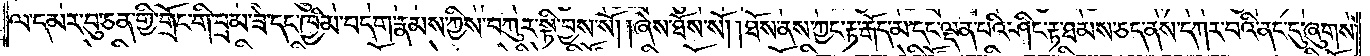ལ་དམར་བུ་ཅན་གྱི་གྲོང་གི་བྲམ་ཟེ་དང་ཁྱིམ་བདག་རྣམས་ཀྱིས་བཀུར་སྟི་བྱས་སོ། །ཞེས་ཐོས་སོ། །ཐོས་ནས་ཀྱང་རྟ་རྒོད་མ་དང་ལྡན་པའི་ཤིང་རྟ་ཐམས་ཅད་ནས་དཀར་བའི་ནང་དུ་ཞུགས་
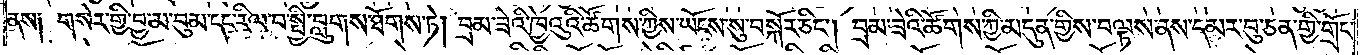ནས༑ གསེར་གྱི་བྱ་མ་བུམ་དང་རིལ་བ་སྤྱི་བླུགས་ཐོགས་ཏེ། བྲམ་ཟེའི་ཁྱེའུའི་ཚོགས་ཀྱིས་ཡོངས་སུ་བསྐོར་ཅིང༌། བྲམ་ཟེའི་ཚོགས་ཀྱི་མདུན་གྱིས་བལྟས་ནས་དམར་བུ་ཅན་གྱི་གྲོང་
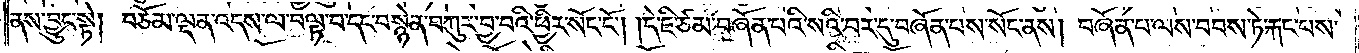ནས་བྱུང་སྟེ། བཅོམ་ལྡན་འདས་ལ་བལྟ་བ་དང་བསྙེན་བཀུར་བྱ་བའི་ཕྱིར་སོང་ངོ༌། །དེ་ཇི་ཙམ་བཞོན་པའི་སའི་བར་དུ་བཞོན་པས་སོང་ནས། བཞོན་པ་ལས་བབས་ཏེ་རྐང་པས་
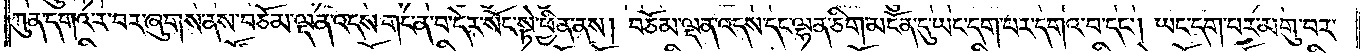ཀུན་དགའ་ར་བར་ཞུགས་ནས་བཅོམ་ལྡན་འདས་གང་ན་བ་དེར་སོང་སྟེ་ཕྱིན་ནས། བཅོམ་ལྡན་འདས་དང་ལྷན་ཅིག་མངོན་དུ་ཡང་དག་པར་དགའ་བ་དང༌། ཡང་དག་པར་མགུ་བར་
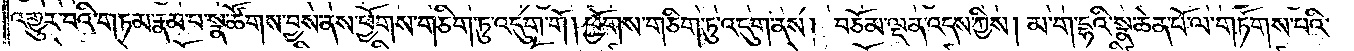འགྱུར་བའི་གཏམ་རྣམ་པ་སྣ་ཚོགས་བྱས་ནས་ཕྱོགས་གཅིག་ཏུ་འདུག་གོ །ཕྱོགས་གཅིག་ཏུ་འདུག་ནས། བཅོམ་ལྡན་འདས་ཀྱིས། མ་ག་དྷའི་སྣ་ཆེན་པོ་ལ་གཏོགས་པའི་
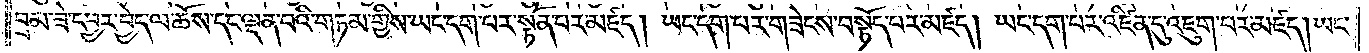བྲམ་ཟེ་དབྱར་བྱེད་ལ་ཆོས་དང་ལྡན་པའི་གཏམ་གྱིས་ཡང་དག་པར་སྟོན་པར་མཛད། ཡང་དག་པར་གཟེངས་བསྟོད་པར་མཛད། ཡང་དག་པར་འཛིན་དུ་འཇུག་པར་མཛད། ཡང་
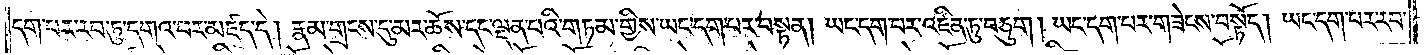དག་པར་རབ་ཏུ་དགའ་བར་མཛད་དེ། རྣམ་གྲངས་དུ་མར་ཆོས་དང་ལྡན་པའི་གཏམ་གྱིས་ཡང་དག་པར་བསྟན། ཡང་དག་པར་འཛིན་ཏུ་བཅུག །ཡང་དག་པར་གཟེངས་བསྟོད། ཡང་དག་པར་རབ་
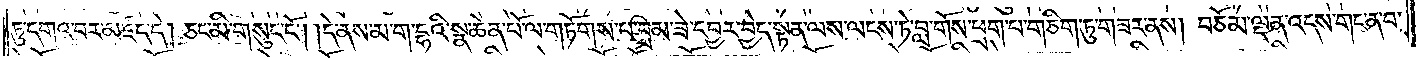ཏུ་དགའ་བར་མཛད་དེ། ཅང་མི་གསུང་ངོ༌། །དེ་ནས་མ་ག་དྷའི་སྣ་ཆེན་པོ་ལ་གཏོགས་པ་བྲམ་ཟེ་དབྱར་བྱེད་སྟན་ལས་ལངས་ཏེ་བླ་གོས་ཕྲག་པ་གཅིག་ཏུ་གཟར་ནས། བཅོམ་ལྡན་འདས་གང་ན་བ་
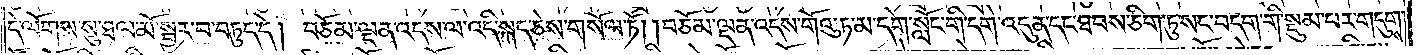དེ་ལོགས་སུ་ཐལ་མོ་སྦྱར་བ་བཏུད་དེ། བཅོམ་ལྡན་འདས་ལ་འདི་སྐད་ཅེས་གསོལ་ཏོ། །བཅོམ་ལྡན་འདས་གོའུ་ཏ་མ་དགེ་སློང་གི་དགེ་འདུན་དང་ཐབས་ཅིག་ཏུ་སང་བདག་གི་སྡུམ་པར་གདུགས་
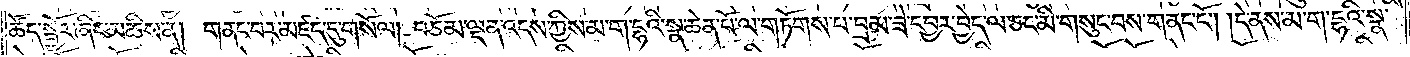ཚོད་སྦྱོར་ཞིང་མཆིས་ན། གནང་བར་མཛད་དུ་གསོལ། བཅོམ་ལྡན་འདས་ཀྱིས་མ་ག་དྷའི་སྣ་ཆེན་པོ་ལ་གཏོགས་པ་བྲམ་ཟེ་དབྱར་བྱེད་ལ་ཅང་མི་གསུང་བས་གནང་ངོ༌། །དེ་ནས་མ་ག་དྷའི་སྣ་
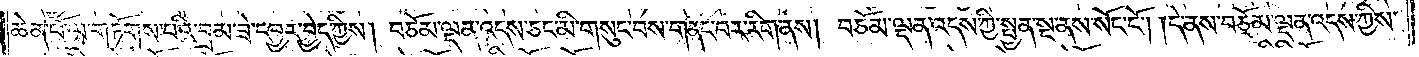ཆེན་པོ་ལ་གཏོགས་པའི་བྲམ་ཟེ་དབྱར་བྱེད་ཀྱིས། བཅོམ་ལྡན་འདས་ཅང་མི་གསུང་བས་གནང་བར་རིག་ནས། བཅོམ་ལྡན་འདས་ཀྱི་སྤྱན་སྔ་ནས་སོང་ངོ༌། །དེ་ནས་བཅོམ་ལྡན་འདས་ཀྱིས་
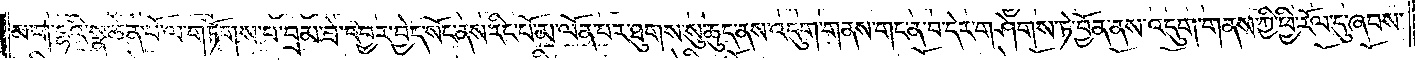མ་ག་དྷའི་སྣ་ཆེན་པོ་ལ་གཏོགས་པ་བྲམ་ཟེ་དབྱར་བྱེད་སོང་ནས་རིང་པོ་མ་ལོན་པར་ཐུགས་སུ་ཆུད་ནས་འདུག་གནས་གང་ན་བ་དེར་གཤེགས་ཏེ་བྱོན་ནས་འདུག་གནས་ཀྱི་ཕྱི་རོལ་དུ་ཞབས་
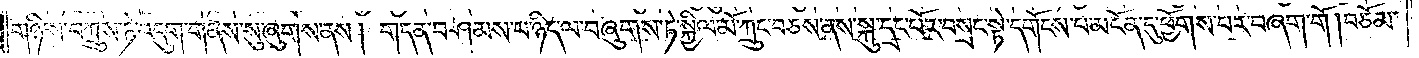གཉིས་བཀྲུས་ཏེ་འདུག་གནས་སུ་ཞུགས་ནས། གདན་བཤམས་པ་ཉིད་ལ་བཞུགས་ཏེ་སྐྱིལ་མོ་ཀྲུང་བཅས་ནས་སྐུ་དྲང་པོར་བསྲང་སྟེ་དགོངས་པ་མངོན་དུ་ཕྱོགས་པར་བཞག་གོ །བཅོམ་
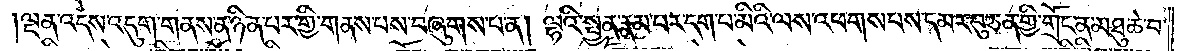ལྡན་འདས་འདུག་གནས་ན་ཉིན་པར་གྱི་གནས་པས་བཞུགས་པ་ན། ལྷའི་སྤྱན་རྣམ་པར་དག་པ་མིའི་ལས་འཕགས་པས་དམར་བུ་ཅན་གྱི་གྲོང་ན་མཐུ་ཆེ་བ་
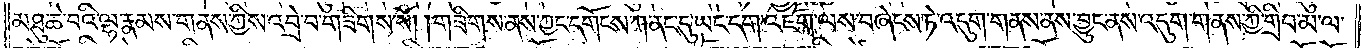མཐུ་ཆེ་བའི་ལྷ་རྣམས་གནས་ཀྱིས་འབྲེ་བ་གཟིགས་སོ། །གཟིགས་ནས་ཀྱང་དགོངས་ཀ་ནང་དུ་ཡང་དག་འཇོག་ལས་བཞེངས་ཏེ་འདུག་གནས་ནས་བྱུང་ནས་འདུག་གནས་ཀྱི་གྲིབ་མ་ལ་
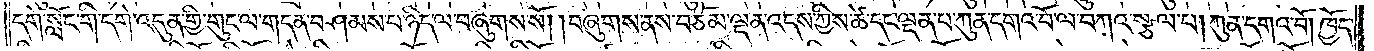དགེ་སློང་གི་དགེ་འདུན་གྱི་གུང་ལ་གདན་བཤམས་པ་ཉིད་ལ་བཞུགས་སོ། །བཞུགས་ནས་བཅོམ་ལྡན་འདས་ཀྱིས་ཚེ་དང་ལྡན་པ་ཀུན་དགའ་བོ་ལ་བཀའ་སྩལ་པ། ཀུན་དགའ་བོ། ཁྱོད་
